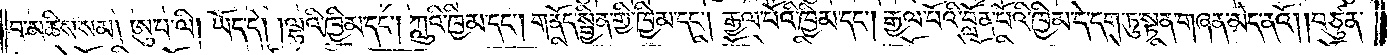བ་མཆིས་སམ། ཨུ་པ་ལི། ཡོད་དེ། །ལྷའི་ཁྱིམ་དང༌། ཀླུའི་ཁྱིམ་དང༌། གནོད་སྦྱིན་གྱི་ཁྱིམ་དང༌། རྒྱལ་པོའི་ཁྱིམ་དང༌། རྒྱལ་པོའི་བློན་པོའི་ཁྱིམ་དེ་དག་ཏུ་སྟན་གཞན་མེད་ནའོ། །བཙུན་
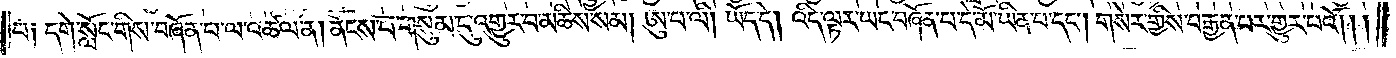པ༑ དགེ་སློང་གིས་བཞོན་པ་ལ་འཚལ་ན། ནོངས་པ་གསུམ་དུ་འགྱུར་བ་མཆིས་སམ། ཨུ་པ་ལི། ཡོད་དེ། འདི་ལྟར་ཡང་བཞོན་པ་དེ་མོ་ཡིན་པ་དང༌། གསེར་གྱིས་བརྒྱན་པར་གྱུར་པའོ༎
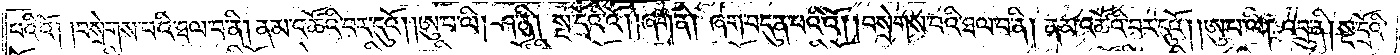པའི་འོ། །བསྲེགས་པའི་ཐལ་བ་ནི། ནམ་འཚོའི་བར་དུའོ། །ཨུ་པ་ལི། ཤ་ནི། སྔ་དྲོའི་འོ། །ཞག་ནི། ཞག་བདུན་པའི་འོ། །བསྲེགས་པའི་ཐལ་བ་ནི། ནམ་འཚོའི་བར་དུའོ། །ཨུ་པ་ལི། འབྲུ་ནི། སྔ་དྲོའི་
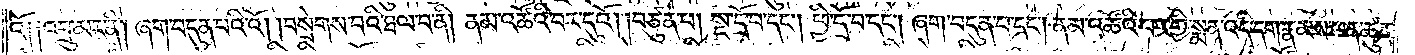འོ༑ ༑འབྲུ་མར་ནི། ཞག་བདུན་པའི་འོ། །བསྲེགས་པའི་ཐལ་བ་ནི། ནམ་འཚོའི་བར་དུའོ། །བཙུན་པ། སྔ་དྲོ་བ་དང༌། ཕྱི་དྲོ་བ་དང༌། ཞག་བདུན་པ་དང༌། ནམ་འཚོའི་བར་གྱི་སྨན་འདི་དག་རྣམས་ཕན་ཚུན་
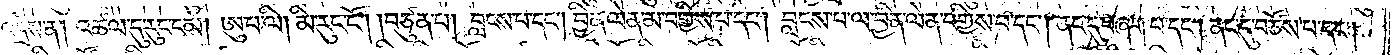འདྲེས་ན། འཚལ་དུ་རུང་ངམ། ཨུ་པ་ལི། མི་རུང་ངོ༌། །བཙུན་པ། བླངས་པ་དང༌། བྱིན་ལེན་མ་བགྱིས་པ་དང༌། བླངས་པ་ལ་བྱིན་ལེན་བགྱིས་པ་དང༌། ནང་དུ་བཞག་པ་དང༌། ནང་དུ་བཙོས་པ་དང༌།
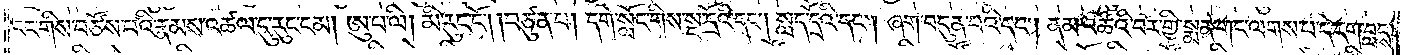རང་གིས་བཙོས་པའི་རྣམས་འཚལ་དུ་རུང་ངམ། ཨུ་པ་ལི། མི་རུང་ངོ༌། །བཙུན་པ། དགེ་སློང་གིས་སྔ་དྲོའི་དང༌། སླད་དྲོའི་དང༌། ཞག་བདུན་པའི་དང༌། ནམ་འཚོའི་བར་གྱི་སྨན་གང་ལགས་པ་དེ་དག་བླངས་
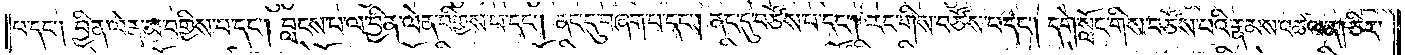པ་དང༌། བྱིན་ལེན་མ་བགྱིས་པ་དང༌། བླངས་པ་ལ་བྱིན་ལེན་བགྱིས་པ་དང༌། ནང་དུ་བཞག་པ་དང༌། ནང་དུ་བཙོས་པ་དང༌། རང་གིས་བཙོས་པ་དང༌། དགེ་སློང་གིས་བཙོས་པའི་རྣམས་འཚལ་ན། ཅིར་
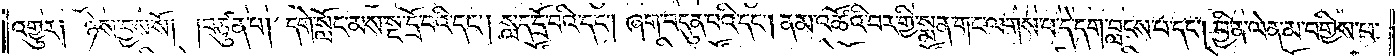འགྱུར། ཉེས་བྱས་སོ། །བཙུན་པ། དགེ་སློང་མས་སྔ་དྲོ་བའི་དང༌། སླད་དྲོ་བའི་དང༌། ཞག་བདུན་པའི་དང༌། ནམ་འཚོའི་བར་གྱི་སྨན་གང་ལགས་པ་དེ་དག་བླངས་པ་དང༌། བྱིན་ལེན་མ་བགྱིས་པ་
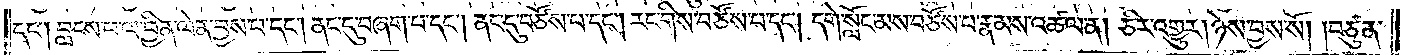དང༌། བླངས་པ་ལ་བྱིན་ལེན་བྱས་པ་དང༌། ནང་དུ་བཞག་པ་དང༌། ནང་དུ་བཙོས་པ་དང༌། རང་གིས་བཙོས་པ་དང༌། དགེ་སློང་མས་བཙོས་པ་རྣམས་འཚལ་ན། ཅིར་འགྱུར། ཉེས་བྱས་སོ། །བཙུན་
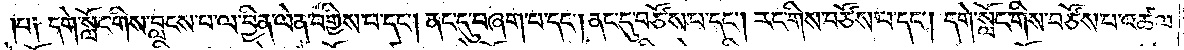།པ༑ དགེ་སློང་གིས་བླངས་པ་ལ་བྱིན་ལེན་བགྱིས་པ་དང༌། ནང་དུ་བཞག་པ་དང༌། ནང་དུ་བཙོས་པ་དང༌། རང་གིས་བཙོས་པ་དང༌། དགེ་སློང་གིས་བཙོས་པ་འཚལ་
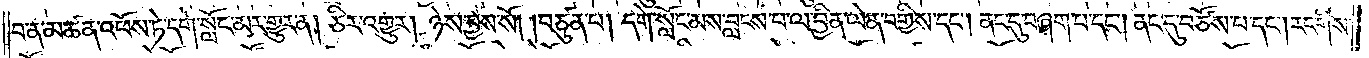བ་ན་མཚན་འཕོས་ཏེ་དགེ་སློང་མར་གྱུར་ན། ཅིར་འགྱུར། ཉེས་བྱས་སོ། །བཙུན་པ། དགེ་སློང་མས་བླངས་པ་ལ་བྱིན་ལེན་བགྱིས་དང༌། ནང་དུ་བཞག་པ་དང༌། ནང་དུ་བཙོས་པ་དང༌། རང་གིས་
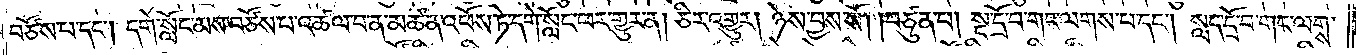བཙོས་པ་དང༌། དགེ་སློང་མས་བཙོས་པ་འཚལ་བ་ན་མཚན་འཕོས་ཏེ་དགེ་སློང་ཕར་གྱུར་ན། ཅིར་འགྱུར། ཉེས་བྱས་སོ། །བཙུན་པ། སྔ་དྲོ་བ་གང་ལགས་པ་དང༌། སླད་དྲོ་བ་གང་ལགས་
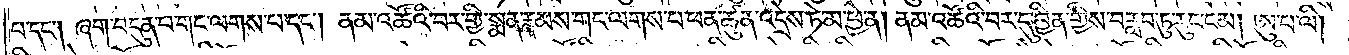པ་དང༌། ཞག་བདུན་པ་གང་ལགས་པ་དང༌། ནམ་འཚོའི་བར་གྱི་སྨན་རྣམས་གང་ལགས་པ་ཕན་ཚུན་འདྲེས་ཏེ་མ་ཕྱེ་ན། ནམ་འཚོའི་བར་དུ་བྱིན་གྱིས་བརླབ་ཏུ་རུང་ངམ། ཨུ་པ་ལི།
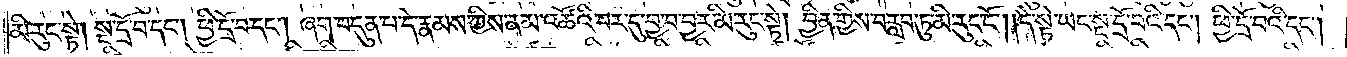མི་རུང་སྟེ། སྔ་དྲོ་བ་དང༌། ཕྱི་དྲོ་བ་དང༌། ཞག་བདུན་པ་དེ་རྣམས་ཀྱིས་ནམ་འཚོའི་བར་དུ་བྱ་བ་བྱར་མི་རུང་སྟེ། བྱིན་གྱིས་བརླབ་ཏུ་མི་རུང་ངོ༌། །དེ་སྟེ་ཡང་སྔ་དྲོ་བའི་དང༌། ཕྱི་དྲོ་བའི་དང༌།
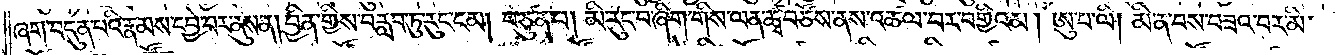ཞག་བདུན་པའི་རྣམས་དབྱེ་བར་ནུས་ན། བྱིན་གྱིས་བརླབ་ཏུ་རུང་ངམ། བཙུན་པ། མི་རུང་བ་ཞིག་གིས་ལན་ཚྭ་བཙོས་ནས་འཚལ་བར་བགྱིའམ། ཨུ་པ་ལི། མི་ན་བས་བཟའ་བར་མི་
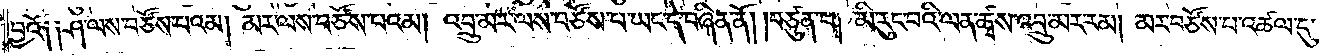བྱའོ༑ ༑ཤ་ལས་བཙོས་པའམ། མར་ལས་བཙོས་པའམ། འབྲུ་མར་ལས་བཙོས་པ་ཡང་དེ་བཞིན་ནོ། །བཙུན་པ། མི་རུང་བའི་ལན་ཚྭས་འབྲུ་མར་རམ། མར་བཙོས་པ་འཚལ་དུ་
